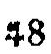48
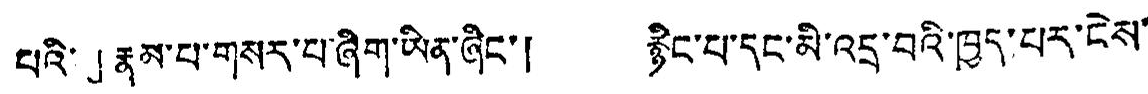པའི་」རྣམ་པ་གསར་པ་ཞིག་ཡིན་ཞིང་། རྙིང་པ་དང་མི་འདྲ་བའི་ཁྱད་པར་ངེས་
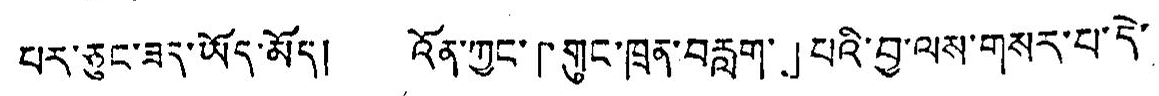པར་ཅུང་ཟད་ཡོད་མོད། འོན་ཀྱང་「གུང་ཁྲན་བརླག་」པའི་བ་ལས་གསར་པ་དེ་
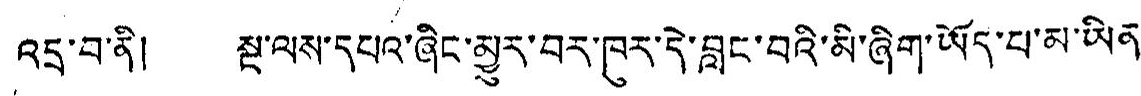འདྲ་བ་ནི། སྔ་ལས་དཔའ་ཞིང་མྱུར་བར་ཁུར་དེ་བླང་བའི་མི་ཞིག་ཡོད་པ་མ་ཡིན་
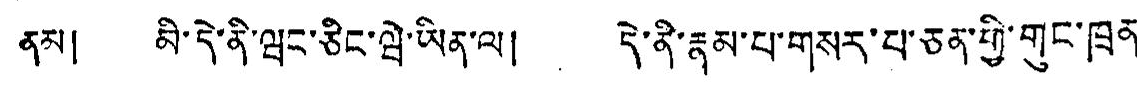ནམ། མི་དེ་ནི་ཝང་ཅིང་ཝེ་ཡིན་ལ། དེ་ནི་རྣམ་པ་གསར་པ་ཅན་གྱི་གུང་ཁྲན་
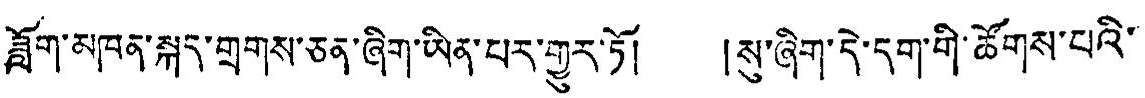ཟློག་མཁན་སྐད་གྲགས་ཅན་ཞིག་ཡིན་པར་གྱུར་ཏོ། །སུ་ཞིག་དེ་དག་གི་ཚོགས་པའི་
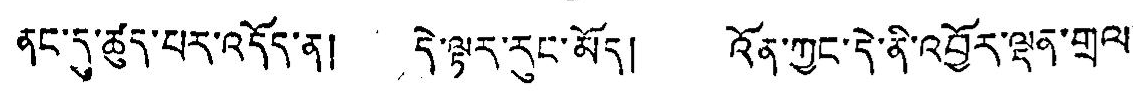ནང་དུ་ཚུད་པར་འདོད་ན། དེ་ལྟར་རུང་མོད། འོན་ཀྱང་དེ་ནི་འབྱོར་ལྡན་གྲལ་
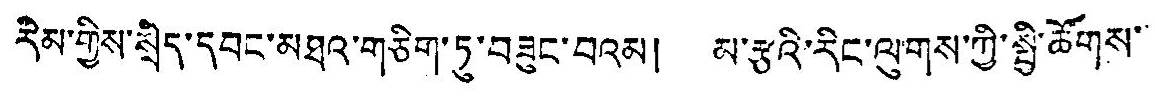རིམ་གྱིས་སྲིད་དབང་མཐའ་གཅིག་ཏུ་བཟུང་བའམ། མ་རྩའི་རིང་ལུགས་ཀྱི་སྤྱི་ཚོགས་
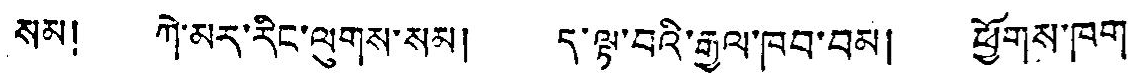སམ། ཀེ་མར་རིང་ལུགས་སུམ། ད་ལྟ་བའི་རྒྱལ་ཁབ་བམ། ཕྱོགས་ཁག
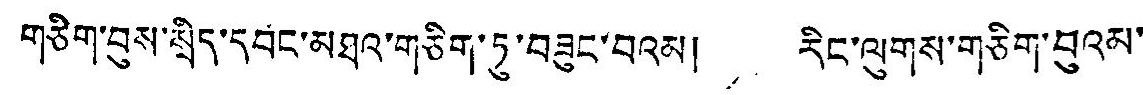གཅིག་བུས་སྲིད་དབང་མཐའ་གཅིག་ཏུ་བཟུང་བའམ། རིང་ལུགས་གཅིག་བུའམ་
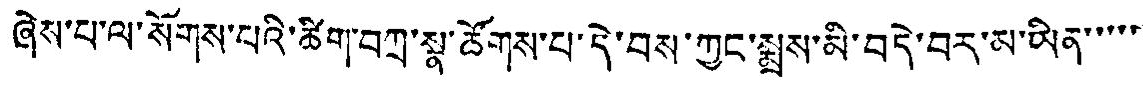ཞེས་པ་ལ་སོགས་པའི་ཚིག་བཀྲ་སྣ་ཚོགས་པ་དེ་བས་ཀྱང་སྨྲས་མི་བདེ་བར་མ་ཡིན་་་་་
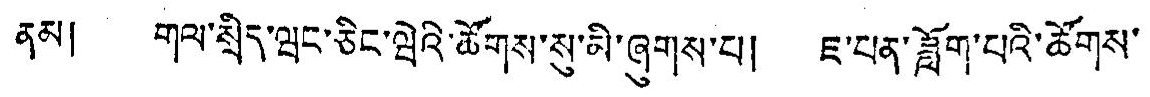ནམ། གལ་སྲིད་ཝང་ཅིང་ཝེའི་ཚོགས་སུ་མི་ཞུགས་པ། ཇ་པན་ཟློག་པའི་ཚོགས་
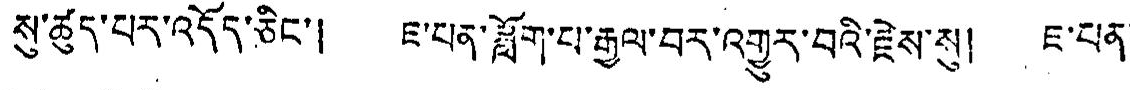སུ་ཚུད་པར་འདོད་ཅིང་། ཇ་པན་ཟློག་པ་རྒྱལ་བར་འགྱུར་བའི་རྗེས་སུ། ཇ་པན་
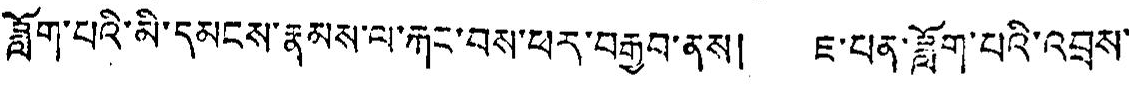ཟློག་པའི་མི་དམངས་རྣམས་ལ་རྐང་བས་ཕར་བརྒྱབ་ནས། ཇ་པན་ཟློག་པའི་འབྲས་
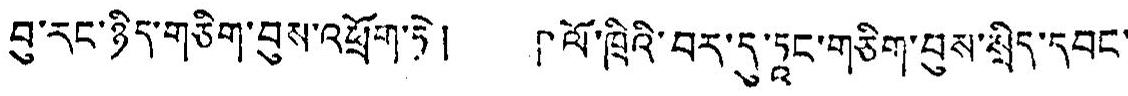བུ་རང་ཉིད་གཅིག་བུས་འཕྲོག་ཏེ། 「ལོ་ཁྲིའི་བར་དུ་ཏཱང་གཅིག་བུས་སྲིད་དབང་
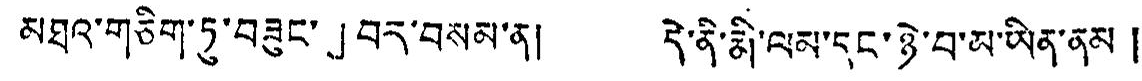མཐའ་གཅིག་ཏུ་བཟུང་」བར་བསམ་ན། དེ་ནི་མི་ལམ་དང་ཉེ་བ་མ་ཡིན་ནམ །
